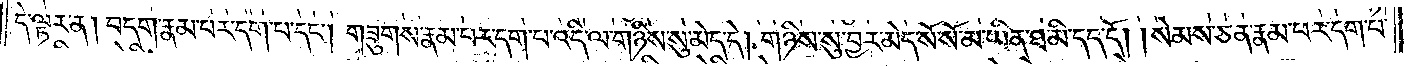དེ་ལྟར་ན། བདག་རྣམ་པར་དག་པ་དང༌། གཟུགས་རྣམ་པར་དག་པ་འདི་ལ་གཉིས་སུ་མེད་དེ། གཉིས་སུ་བྱར་མེད་སོ་སོ་མ་ཡིན་ཐ་མི་དད་དོ། །སེམས་ཅན་རྣམ་པར་དག་པ་
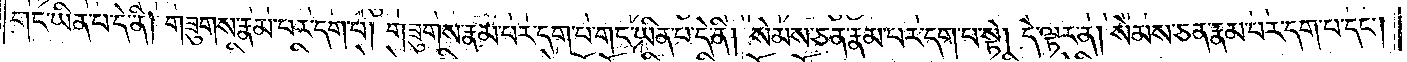གང་ཡིན་པ་དེ་ནི། གཟུགས་རྣམ་པར་དག་པ། གཟུགས་རྣམ་པར་དག་པ་གང་ཡིན་པ་དེ་ནི། སེམས་ཅན་རྣམ་པར་དག་པ་སྟེ། དེ་ལྟར་ན། སེམས་ཅན་རྣམ་པར་དག་པ་དང༌།
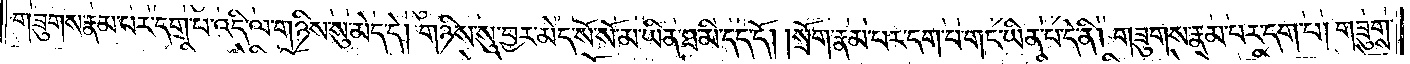གཟུགས་རྣམ་པར་དག་པ་འདི་ལ་གཉིས་སུ་མེད་དེ། གཉིས་སུ་བྱར་མེད་སོ་སོ་མ་ཡིན་ཐ་མི་དད་དོ། །སྲོག་རྣམ་པར་དག་པ་གང་ཡིན་པ་དེ་ནི། གཟུགས་རྣམ་པར་དག་པ། གཟུགས་
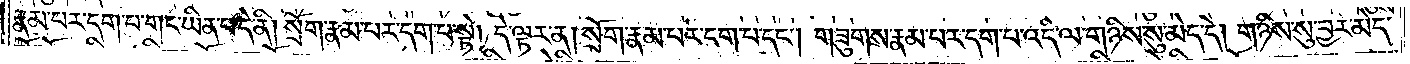རྣམ་པར་དག་པ་གང་ཡིན་པ་དེ་ནི། སྲོག་རྣམ་པར་དག་པ་སྟེ། དེ་ལྟར་ན། སྲོག་རྣམ་པར་དག་པ་དང༌། གཟུགས་རྣམ་པར་དག་པ་འདི་ལ་གཉིས་སུ་མེད་དེ། གཉིས་སུ་བྱར་མེད་
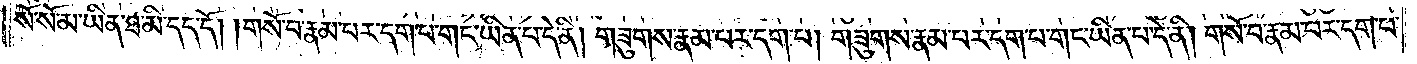སོ་སོ་མ་ཡིན་ཐ་མི་དད་དོ། །གསོ་བ་རྣམ་པར་དག་པ་གང་ཡིན་པ་དེ་ནི། གཟུགས་རྣམ་པར་དག་པ། གཟུགས་རྣམ་པར་དག་པ་གང་ཡིན་པ་དེ་ནི། གསོ་བ་རྣམ་པར་དག་པ་
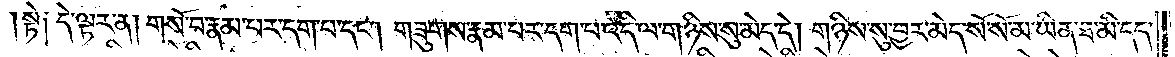སྟེ༑ དེ་ལྟར་ན། གསོ་བ་རྣམ་པར་དག་པ་དང༌། གཟུགས་རྣམ་པར་དག་པ་འདི་ལ་གཉིས་སུ་མེད་དེ། གཉིས་སུ་བྱར་མེད་སོ་སོ་མ་ཡིན་ཐ་མི་དད་
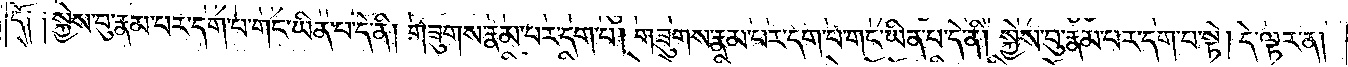དོ༑ ༑སྐྱེས་བུ་རྣམ་པར་དག་པ་གང་ཡིན་པ་དེ་ནི། གཟུགས་རྣམ་པར་དག་པ། གཟུགས་རྣམ་པར་དག་པ་གང་ཡིན་པ་དེ་ནི། སྐྱེས་བུ་རྣམ་པར་དག་པ་སྟེ། དེ་ལྟར་ན།
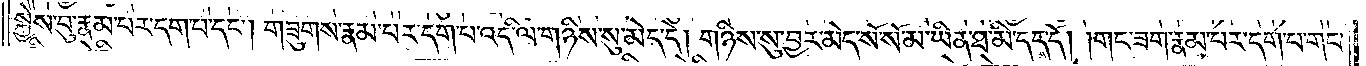སྐྱེས་བུ་རྣམ་པར་དག་པ་དང༌། གཟུགས་རྣམ་པར་དག་པ་འདི་ལ་གཉིས་སུ་མེད་དེ། གཉིས་སུ་བྱར་མེད་སོ་སོ་མ་ཡིན་ཐ་མི་དད་དོ། །གང་ཟག་རྣམ་པར་དག་པ་གང་
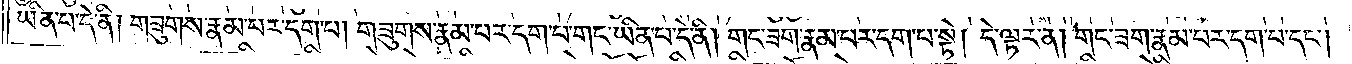ཡིན་པ་དེ་ནི། གཟུགས་རྣམ་པར་དག་པ། གཟུགས་རྣམ་པར་དག་པ་གང་ཡིན་པ་དེ་ནི། གང་ཟག་རྣམ་པར་དག་པ་སྟེ། དེ་ལྟར་ན། གང་ཟག་རྣམ་པར་དག་པ་དང༌།
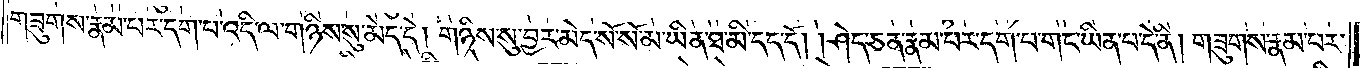གཟུགས་རྣམ་པར་དག་པ་འདི་ལ་གཉིས་སུ་མེད་དེ། གཉིས་སུ་བྱར་མེད་སོ་སོ་མ་ཡིན་ཐ་མི་དད་དོ། །ཤེད་ཅན་རྣམ་པར་དག་པ་གང་ཡིན་པ་དེ་ནི། གཟུགས་རྣམ་པར་
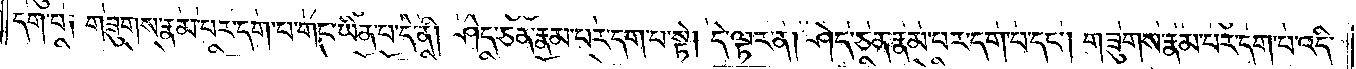དག་པ༑ གཟུགས་རྣམ་པར་དག་པ་གང་ཡིན་པ་དེ་ནི། ཤེད་ཅན་རྣམ་པར་དག་པ་སྟེ། དེ་ལྟར་ན། ཤེད་ཅན་རྣམ་པར་དག་པ་དང༌། གཟུགས་རྣམ་པར་དག་པ་འདི་
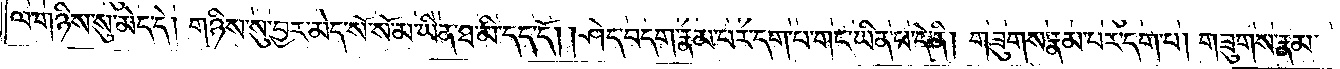ལ་གཉིས་སུ་མེད་དེ། གཉིས་སུ་བྱར་མེད་སོ་སོ་མ་ཡིན་ཐ་མི་དད་དོ། །ཤེད་བདག་རྣམ་པར་དག་པ་གང་ཡིན་པ་དེ་ནི། གཟུགས་རྣམ་པར་དག་པ། གཟུགས་རྣམ་
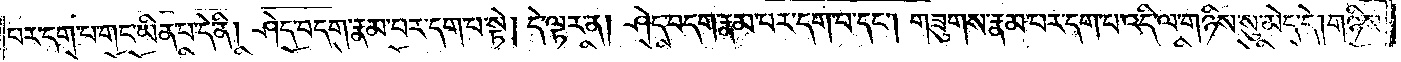པར་དག་པ་གང་ཡིན་པ་དེ་ནི། ཤེད་བདག་རྣམ་པར་དག་པ་སྟེ། དེ་ལྟར་ན། ཤེད་བདག་རྣམ་པར་དག་པ་དང༌། གཟུགས་རྣམ་པར་དག་པ་འདི་ལ་གཉིས་སུ་མེད་དེ། གཉིས་
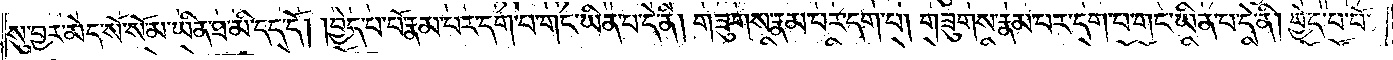སུ་བྱར་མེད་སོ་སོ་མ་ཡིན་ཐ་མི་དད་དོ། །བྱེད་པ་པོ་རྣམ་པར་དག་པ་གང་ཡིན་པ་དེ་ནི། གཟུགས་རྣམ་པར་དག་པ། གཟུགས་རྣམ་པར་དག་པ་གང་ཡིན་པ་དེ་ནི། བྱེད་པ་པོ་
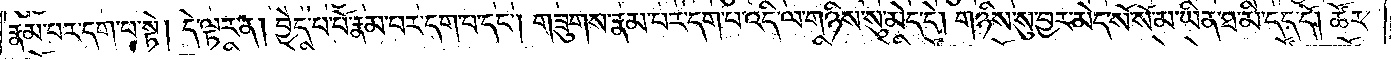རྣམ་པར་དག་པ་སྟེ། དེ་ལྟར་ན། བྱེད་པ་པོ་རྣམ་པར་དག་པ་དང༌། གཟུགས་རྣམ་པར་དག་པ་འདི་ལ་གཉིས་སུ་མེད་དེ། གཉིས་སུ་བྱར་མེད་སོ་སོ་མ་ཡིན་ཐ་མི་དད་དོ། །ཚོར་
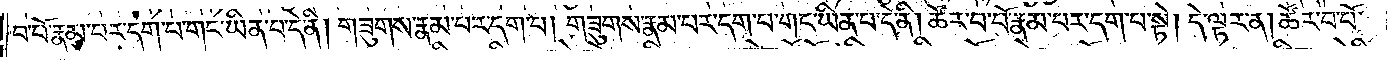བ་པོ་རྣམ་པར་དག་པ་གང་ཡིན་པ་དེ་ནི། གཟུགས་རྣམ་པར་དག་པ། གཟུགས་རྣམ་པར་དག་པ་གང་ཡིན་པ་དེ་ནི། ཚོར་བ་པོ་རྣམ་པར་དག་པ་སྟེ། དེ་ལྟར་ན། ཚོར་བ་པོ་
